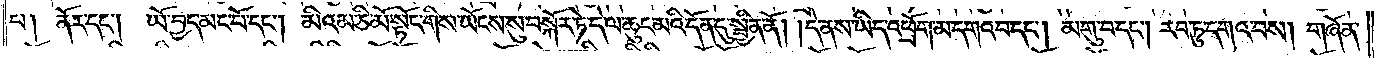པ། ནོར་དང༌།  ཡོ་བྱད་མང་པོ་དང༌། མིའམ་ཅི་མོ་སྟོང་གིས་ཡོངས་སུ་བསྐོར་ཏེ་དེ་ལ་ཆུང་མའི་དོན་དུ་སྦྱིན་ནོ། །དེ་ནས་ཡིད་འཕྲོག་མ་དགའ་བ་དང༌། མགུ་བ་དང༌། རབ་ཏུ་དགའ་བས། གཞོན་
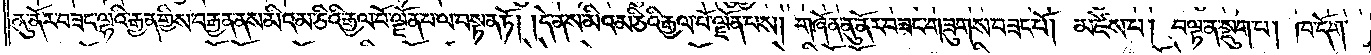ནུ་ནོར་བཟང་ལྷའི་རྒྱན་གྱིས་བརྒྱན་ནས་མིའམ། ཅིའི་རྒྱལ་པོ་ལྗོན་པ་ལ་བསྟན་ཏོ། །དེ་ནས་མིའམ་ཅིའི་རྒྱལ་པོ་ལྗོན་པས། གཞོན་ནུ་ནོར་བཟང་གཟུགས་བཟང་པོ། མཛེས་པ། བལྟ་ན་སྡུག་པ། ཁ་དོག་
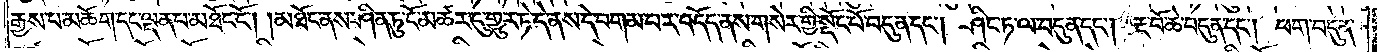རྒྱས་པ་མཆོག་དང་ལྡན་པ་མཐོང་ངོ༌། །མཐོང་ནས་ཤིན་ཏུ་ངོ་མཚར་དུ་གྱུར་ཏེ་དེ་ནས་དེ་བགམ་པར་འདོད་ནས་གསེར་གྱི་སྡོང་པོ་བདུན་དང༌། ཤིང་ཏ་ལ་བདུན་དང༌། རྔ་བོ་ཆེ་བདུན་དང༌། ཕག་བདུན་
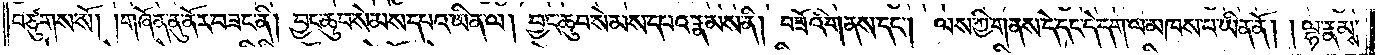བཙུགས་སོ། །གཞོན་ནུ་ནོར་བཟང་ནི། བྱང་ཆུབ་སེམས་དཔའ་ཡིན་ལ། བྱང་ཆུབ་སེམས་དཔའ་རྣམས་ནི། བཟོའི་གནས་དང༌། ལས་ཀྱི་གནས་དེ་དང་དེ་དག་ལ་མཁས་པ་ཡིན་ནོ། །ལྷ་རྣམས་
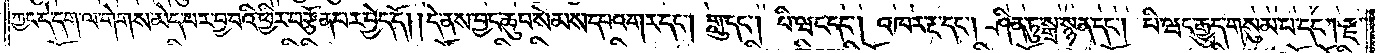ཀྱང་དེ་དག་ལ་གེགས་མེད་པར་བྱ་བའི་ཕྱིར་བརྩོན་པར་བྱེད་དོ། །དེ་ནས་བྱང་ཆུབ་སེམས་དཔའ་གར་དང༌། གླུ་དང༌། པི་ཝང་དང༌། འཁར་རྔ་དང༌། ཤིན་ཏུ་སྒྲ་སྙན་དང༌། པི་ཝང་རྒྱུད་གསུམ་པ་དང༌། རྫ་
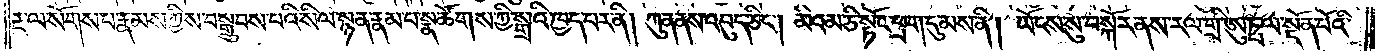རྔ་ལ་སོགས་པ་རྣམས་ཀྱིས་བསྒྲུབས་པའི་སིལ་སྙན་རྣམ་པ་སྣ་ཚོགས་ཀྱི་སྒྲའི་ཁྱད་པར་ནི། ཀུན་ནས་འབུད་ཅིང༌། མིའམ་ཅི་སྟོང་ཕྲག་དུ་མས་ནི། ཡོངས་སུ་བསྐོར་ནས་རལ་གྲི་ཨུཏྤ་ལ་སྔོན་པོའི་
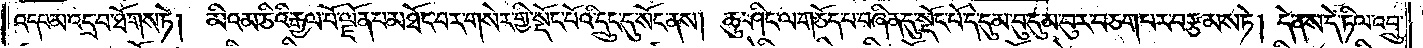འདབ་མ་འདྲ་བ་ཐོགས་ཏེ།   མིའམ་ཅིའི་རྒྱལ་པོ་ལྗོན་པ་མཐོང་བར་གསེར་གྱི་སྡོང་པོའི་དྲུང་དུ་སོང་ནས། ཆུ་ཤིང་ལ་གཅོད་པ་བཞིན་དུ་སྡོང་པོ་དེ་དུམ་བུ་དུམ་བུར་བཅག་པར་བརྩམས་ཏེ། དེ་ནས་དེ་ཏིལ་འབྲུ་
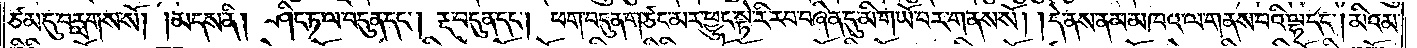ཙམ་དུ་བརླགས་སོ། །མདས་ནི། ཤིང་ཏ་ལ་བདུན་དང༌། རྔ་བདུན་དང༌། ཕག་བདུན་གཙང་མར་ཕྱུང་སྟེ་རི་རབ་བཞིན་དུ་མི་གཡོ་བར་གནས་སོ། །དེ་ནས་ནམ་མཁའ་ལ་གནས་པའི་ལྷ་དང༌། མིའམ་
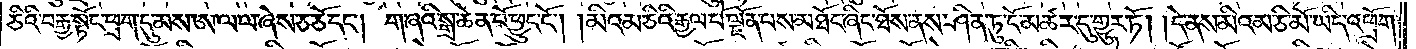ཅིའི་བརྒྱ་སྟོང་ཕྲག་དུ་མས་ཨ་ལ་ལ་ཞེས་ཅ་ཅོ་དང༌། ག་ཞའི་སྒྲ་ཆེན་པོ་ཕྱུང་ངོ༌། །མིའམ་ཅིའི་རྒྱལ་པོ་ལྗོན་པས་མཐོང་ཞིང་ཐོས་ནས་ཤིན་ཏུ་ངོ་མཚར་དུ་གྱུར་ཏོ། །དེ་ནས་མིའམ་ཅི་མོ་ཡིད་འཕྲོག་
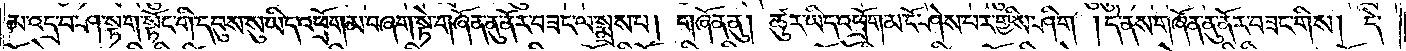མ་འདྲ་བ་ཤ་སྟག་སྟོང་གི་དབུས་སུ་ཡིད་འཕྲོག་མ་བཞག་སྟེ་གཞོན་ནུ་ནོར་བཟང་ལ་སྨྲས་པ། གཞོན་ནུ། ཚུར་ཡིད་འཕྲོག་མ་ངོ་ཤེས་པར་གྱིས་ཤིག །དེ་ནས་གཞོན་ནུ་ནོར་བཟང་གིས། དེ་
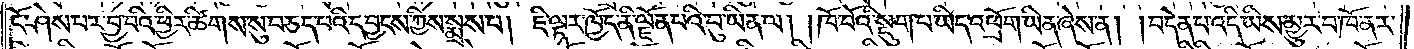ངོ་ཤེས་པར་བྱ་བའི་ཕྱིར་ཚིགས་སུ་བཅད་པའི་དབྱངས་ཀྱིས་སྨྲས་པ། ཇི་ལྟར་ཁྱོད་ནི་ལྗོན་པའི་བུ་ཡིན་ལ། །ཁོ་བོའི་སྡུག་པ་ཡིད་འཕྲོག་ཡིན་ཞེས་ན། །བདེན་པ་འདི་ཡིས་མྱུར་བ་ཁོ་ནར་
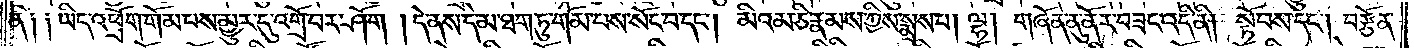ནི༑ ༑ཡིད་འཕྲོག་གོམ་པས་མྱུར་དུ་འགྲོ་བར་ཤོག །དེ་ནས་དེ་མ་ཐག་ཏུ་གོམ་པས་སོང་བ་དང༌། མིའམ་ཅི་རྣམས་ཀྱིས་སྨྲས་པ། ལྷ། གཞོན་ནུ་ནོར་བཟང་འདི་ནི། སྟོབས་དང༌། བརྩོན་
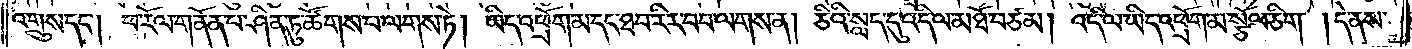འགྲུས་དང༌། ཕ་རོལ་གནོན་པ་ཤིན་ཏུ་ཚོགས་པ་ལགས་ཏེ། ཡིད་འཕྲོག་མ་དང་ཐབ་རིར་བབ་ལགས་ན། ཅིའི་སླད་དུ་འདི་ལ་མཐོ་བཙམ། འདི་ལ་ཡིད་འཕྲོག་མ་སྩོལ་ཅིག །དེ་ནས་
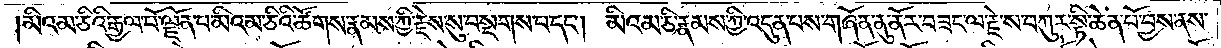མིའམ་ཅིའི་རྒྱལ་པོ་ལྗོན་པ་མིའམ་ཅིའི་ཚོགས་རྣམས་ཀྱི་རྗེས་སུ་བསྔགས་པ་དང༌། མིའམ་ཅི་རྣམས་ཀྱི་འདུན་པས་གཞོན་ནུ་ནོར་བཟང་ལ་རྗེས་བཀུར་སྟི་ཆེན་པོ་བྱས་ནས་
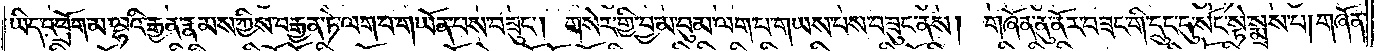ཡིད་འཕྲོག་མ་ལྷའི་རྒྱན་རྣམས་ཀྱིས་བརྒྱན་ཏེ་ལག་པ་གཡོན་པས་བཟུང༌། གསེར་གྱི་བྱ་མ་བུམ་ལག་པ་གཡས་པས་བཟུང་ནས། གཞོན་ནུ་ནོར་བཟང་གི་དྲུང་དུ་སོང་སྟེ་སྨྲས་པ། གཞོན་
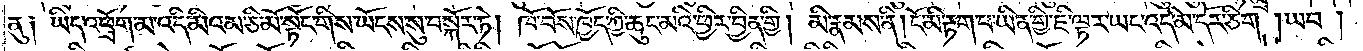ནུ༑ ཡིད་འཕྲོག་མ་འདི་མིའམ་ཅི་མོ་སྟོང་གིས་ཡོངས་སུ་བསྐོར་ཏེ། ཁོ་བོས་ཁྱོད་ཀྱི་ཆུང་མའི་ཕྱིར་བྱིན་གྱི། མི་རྣམས་ནི། ངོ་མི་རྟག་པ་ཡིན་གྱི་ཇི་ལྟར་ཡང་འདི་མི་དོར་ཅིག །ཡབ།
